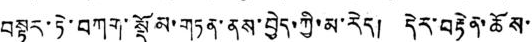བསྟར་ཏེ་བཀག་སྡོམ་གཏན་ནས་བྱེད་ཀྱི་མ་རེད། དེར་བརྟེན་ཆོས་
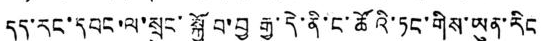དད་རང་དབང་ལ་སྲུང་སྐྱོབ་བྱ རྒྱུ་དེ་ནི་ང་ཚོའི་ཏང་གིས་ཡུན་རིང
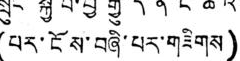(པར་ངོས་བཞི་པར་གཟིགས)
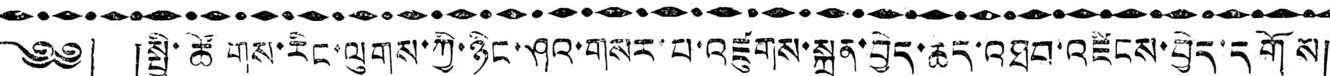༄༅། །སྤྱི་ཚོགས་རིང་ལུགས་ཀྱི་ཉིང་ཤའ་གསར་པ་འཛུགས་སྐྲུན་བྱེད་ཆད་འཐབ་འཛིངས་བྱེད་དགོས།
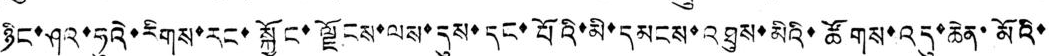ཉིང་ཤའ་ཧུའེ་རིགས་རང་སྐྱོང་ལྗོངས་ལས་དུས་དང་པོའི་མི་དམངས་འཐུས་མིའི་ཚོགས་འདུ་ཆེན་མོའི་
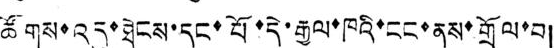ཚོགས་འདུ་ཐེངས་དང་པོ་དེ་རྒྱལ་ཁའི་ངང་ནས་གྲོལ་བ།
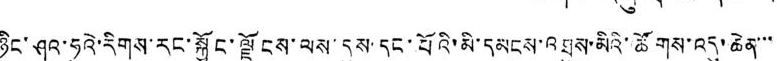ཉིང་ཤའ་ཧུའེ་རིགས་རང་སྐྱོང་ལྗོངས་ལས་དུས་དང་པོའི་མི་དམངས་འཐུས་མིའི་ཚོགས་འདུ་ཆེན་་་
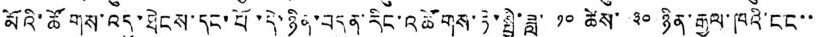མོའི་ཚོགས་འདུ་ཐེངས་དང་པོ་དེ་ཉིན་བདུན་རིང་འཚོགས་ཏེ་སྤྱི་ཟླ་ ༡༠ ཚེས་ ༣༠ ཉིན་རྒྱལ་ཁའི་ངང་་
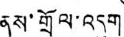ནས་གྲོལ་འདུག
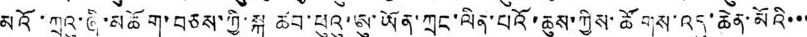མའོ་ཀྲུའུ་ཞི་མཆོག་བཅས་ཀྱི་སྐུ ཚབ་ཕུའུ་ཨུ་ཡོན་ཀྲང་ལིན་པའོ་ཆུས་ཀྱིས་ཚོགས་འདུ་ཆེན་མོའི་་་
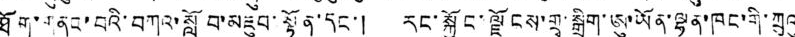ཐོག་གནང་བའི་བཀའ་སློབ་མཇུབ་སྟོན་དང་། རང་སྐྱོང་ལྗོངས་གྲྭ་སྒྲིག་ཨུ་ཡོན་ལྷན་ཁང་གི་ཀྲུའུ་
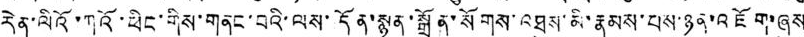རེན་ལིའོ་ཀའོ་ཕིང་གིས་གནང་བའི་ལས་དོན་སྙན་སྒྲོན་སོགས་འཐུས་མི་རྣམས་པས་ཉན་འཇོག་ཞུས་
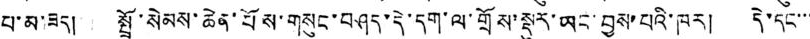པ་མ་ཟད། སྤྲོ་སེམས་ཆེན་པོས་གསུང་བཤད་དེ་དག་ལ་གྲོས་སྡུར་ཡང་བྱས་པའི་ཁར། དེ་དང་་་
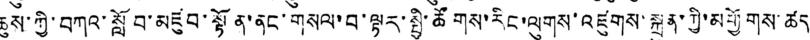ཆུས་ཀྱི་བཀའ་སློབ་མཛུབ་སྟོན་ནང་གསལ་བ་ལྟར་སྤྱི་ཚོགས་རིང་ལུགས་འཛུགས་སྐྲུན་ཀྱི་མགྱོགས་ཚད
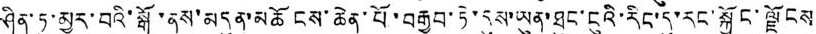ཤིན་རུ་མྱུར་བའི་སྒོ་ནས་མདུན་མཆོངས་ཆེན་པོ་བརྒྱབ་ཏེ་དུས་ཡུན་ཐུང་ངུའི་རིང་དུ་རང་སྐྱོང་ལྗོངས
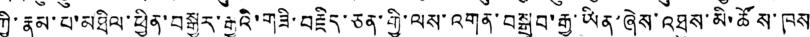ཀྱི་རྣམ་པ་མཐིལ་ཕྱིན་བསྒྱུར་རྒྱུའི་གཟི་བརྗིད་ཅན་གྱི་ལས་འགན་བསྒྲུབ་རྒྱུ་ཡོན་ཞེས་འཐུས་མི་ཚོས་ཁས
